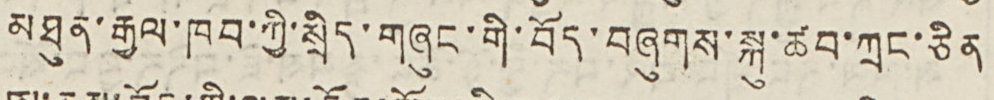མཐུན་རྒྱལ་ཁབ་ཀྱི་སྲིད་གཞུང་གི་བོད་བཞུགས་སྐུ་ཚབ་ཀྲང་ཅིན
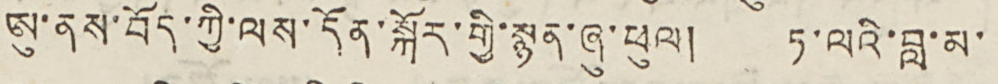ཨུ་ནས་བོད་ཀྱི་ལས་དོན་སྐོར་གྱི་སྙན་ཞུ་ཕུལ། ཏ་ལའི་བླ་མ་
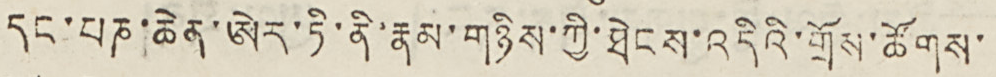དང་པཎ་ཆེན་ཨེར་ཏི་ནི་རྣམ་གཉིས་ཀྱི་ཐེངས་འདིའི་གྲོས་ཚོགས་
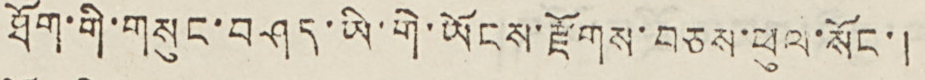ཐོག་གི་གསུང་བཤད་ཡི་གེ་ཡོངས་རྫོགས་བཅས་ཕུལ་སོང་།
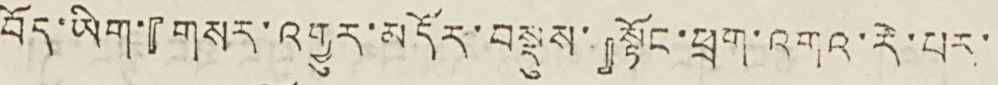བོད་ཡིག་『གསར་འགྱུར་མདོར་བསྡུས་』སྟོང་ཕྲག་འགའ་རེ་པར་
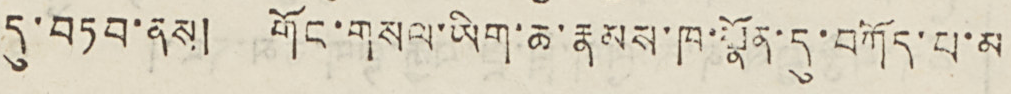དུ་བཏབ་ནས། གོང་གསལ་ཡིག་ཆ་རྣམས་ཁ་སྣོན་དུ་བཀོད་པ་མ
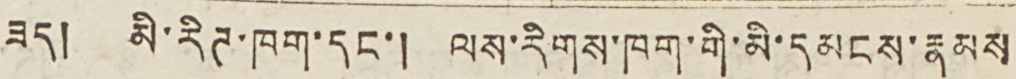ཟད། མི་རིཊ་ཁག་དང་། ལས་རིགས་ཁག་གི་མི་དམངས་རྣམས
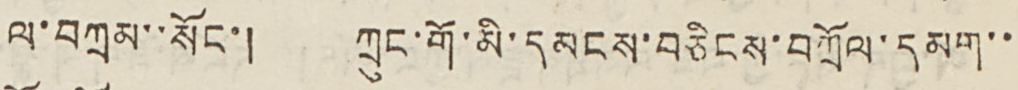ལ་བཀྲམ་་སོང་། ཀྲུང་གོ་མི་དམངས་བཅིངས་བཀྲོལ་དམག་་
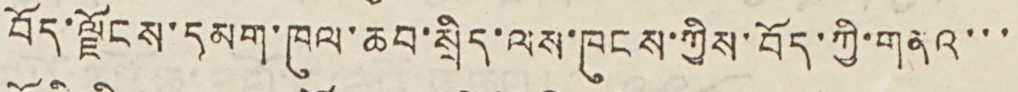བོད་ལྗོངས་དམག་ཁུལ་ཆབ་སྲིད་ལས་ཁུངས་ཀྱིས་བོད་ཀྱི་གནའ་་་
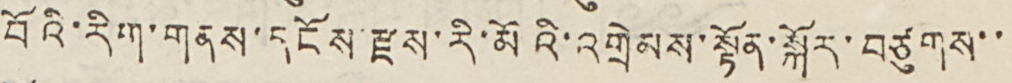བོའི་རིག་གནས་དངོས་རྫས་རི་མོའི་འགྲེམས་སྟོན་སྐོར་བཙུགས་་
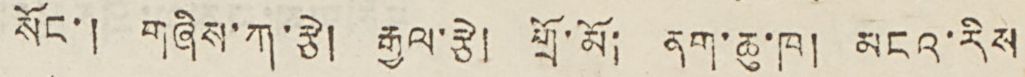སོང་། གཞིས་ཀ་རྩེ། རྒྱལ་རྩེ། གྲོ་མོ། ནག་ཆུ་ཁ། མངའ་རིས
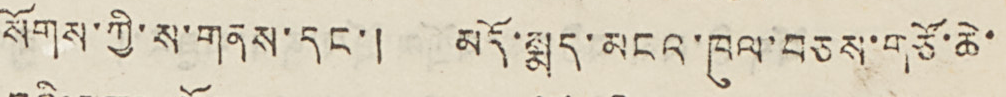སོགས་ཀྱི་ས་གནས་དང་། མདོ་སྨད་མངའ་ཁུལ་བཅས་གཙོ་ཆེ་
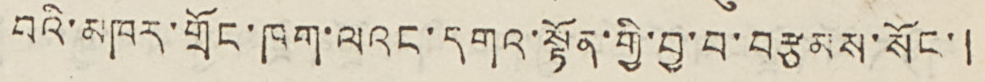བའི་མཁར་གྲོང་ཁག་ལའང་དགའ་སྟོན་གྱི་བྱ་བ་བརྩམས་སོང་།
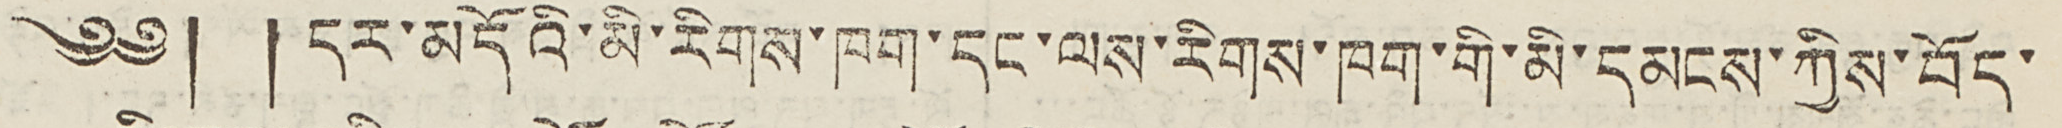༄༅། །དར་མདོའི་མི་རིགས་ཁག་དང་ལས་རིགས་ཁག་གི་མི་དམངས་ཀྱིས་བོད་
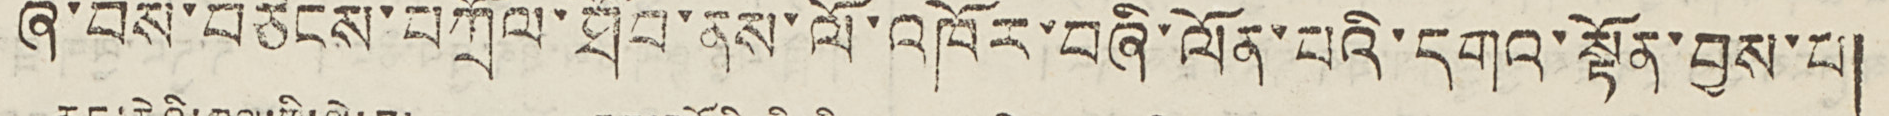ཞི་བས་བཅིངས་བཀྲོལ་ཐོབ་ནས་ལོ་འཁོར་བཞི་ལོན་པའི་དགའ་སྟོན་བྱས་པ།
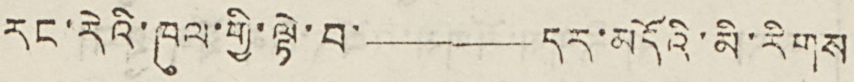རང་རེའི་ཁུལ་གྱི་ལྟེ་བ་——དར་མདོའི་མི་རིགས
